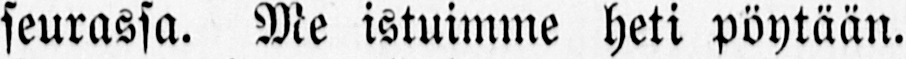seurassa. Me istuimme heti pöytään.
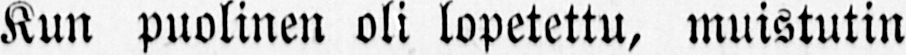Kun puolinen oli lopetettu, muistutin
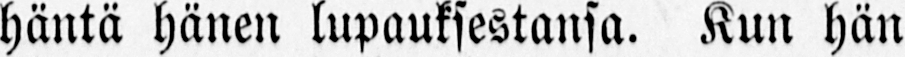häntä hänen lupauksestansa. Kun hän
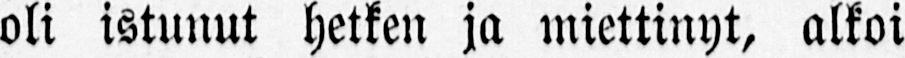oli istunut hetken ja miettinyt, alkoi
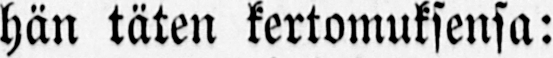hän täten kertomuksensa:
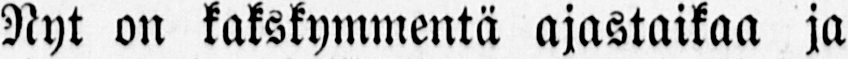Nyt on kakskymmentä ajastaikaa ja
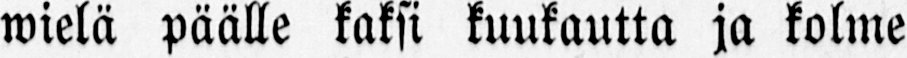wielä päälle kaksi kuukautta ja kolme
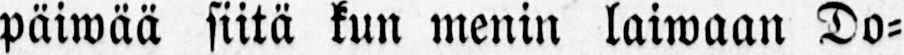päiwää siitä kun menin laiwaan Do-
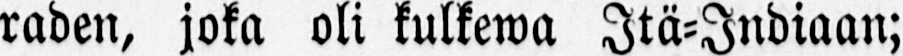raden, joka oli kulkewa Itä-Indiaan;
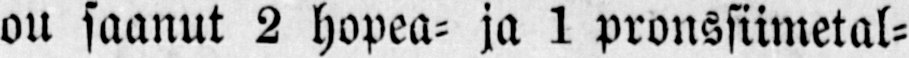on saanut 2 hopea- ja 1 pronssiimetal-
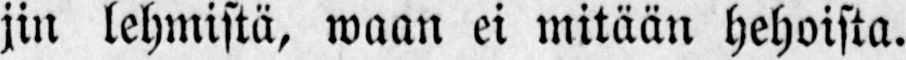jin lehmistä, waan ei mitään hehoista.
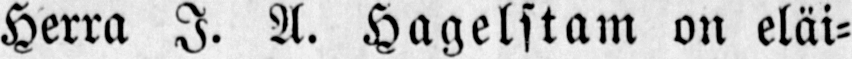Herra I. A. Hagelstam on eläi-
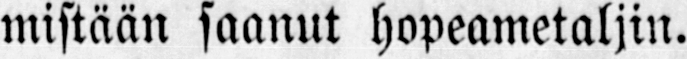mistään saanut hopeametaljin.
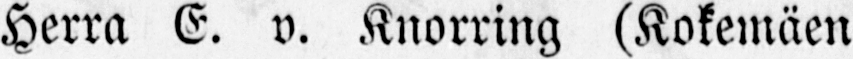Herra E. v. Knorring (Kokemäen
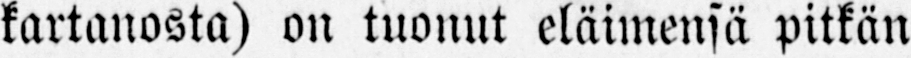kartanosta) on tuonut eläimensä pitkän
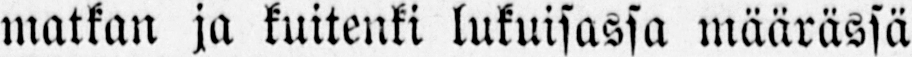matkan ja kuitenki lukuisassa määrässä
